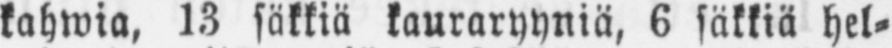kahwia, 13 säkkiä kauraryyniä, 6 säkkiä hel-
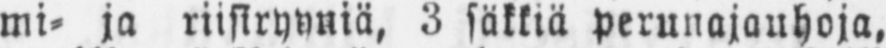mi- ja riisiryyniä, 3 säkkiä perunajauhoja,
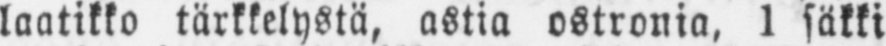laatikko tärkkelystä, astia ostronia, 1 säkki
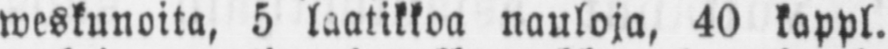weskunoita, 5 laatikkoa nauloja, 40 kappl.
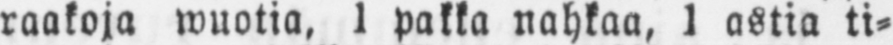raakoja wuotia, 1 pakka nahkaa, 1 astia ti-
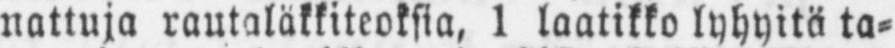nattuja rautaläkkiteoksia, 1 laatikko lyhyitä ta-
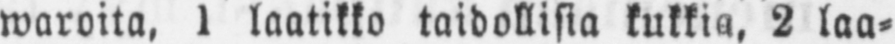waroita, 1 laatikko taidollisia kukkia, 2 laa-
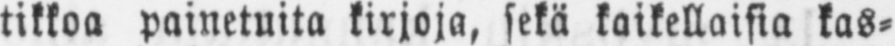tikkoa painetuita kirjoja, sekä kaikellaisia kas-
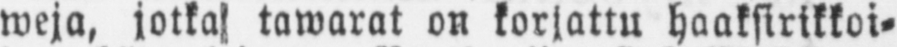weja, jotka tawarat on korjattu haaksirikkoi-
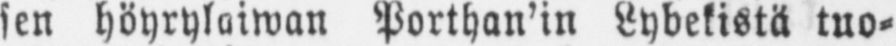sen höyrylaiwan Porthan'in Lybekistä tuo-
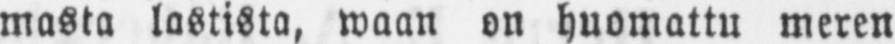masta lastista, waan on huomattu meren
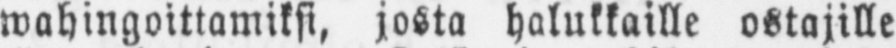wahingoittamiksi, josta halukkaille ostajille
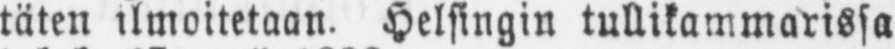täten ilmoitetaan. Helsingin tullikammarissa
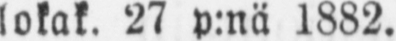lokak. 27 p:nä 1882.
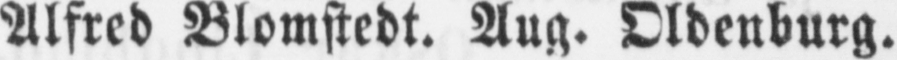Alfred Blomstedt. Aug. Oldenburg.
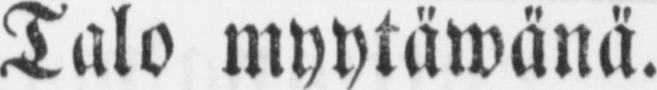Talo myytäwänä.
